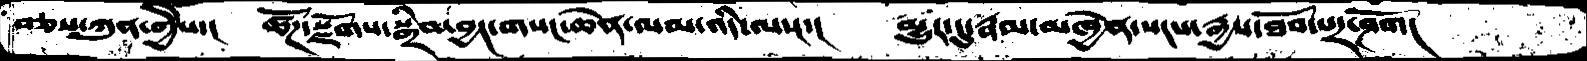བཅས་ཀུན་གྱིས་།  ཚོཌ་སྫོགས་སྒྲིབ་བྱང་གསང་ཆེན་ལམ་འདི་ལ་།་།  མྱུར་དུ་རྣམ་མཁྱེན་སངས་རྒྱས་ཐོབ་པར་ཤོག།
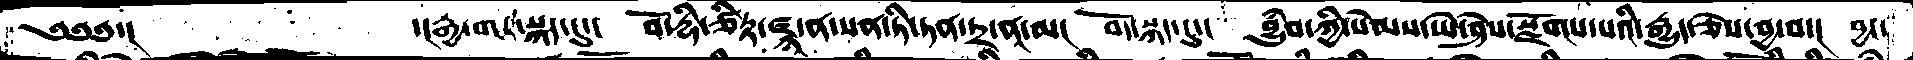༄༅༅་།   ་།རྒྱ་གར་སྐད་དུ་།  བོ་དྷི་ཙིཏྟ་ཛྙཱ་ན་སན་ཏི་ཏན་ཏྲ་ནཱ་མ།  བོད་སྐད་དུ་།  བྱུཾབ་ཀྱི་སེམས་ཡེ་ཤེས་སྫོགས་པའི་རྒྱུད་ཅེས་བྱ་བ་།  བྱང་
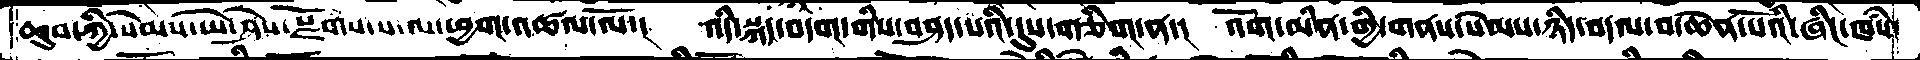ཆུབ་ཀྱི་སེམས་ཡེ་ཤེས་སྫོགས་པ་ལ་ཕྱག་འཚལ་ལོ་།   འདི་སྐད་བདག་གིས་བཤད་པའི་དུས་གཅིག་ན་།   འོག་མིན་གྱི་གནས་སེམས་ཉིད་བདལ་བ་ཆེན་པོའི་ཞིང་ཁཾས་
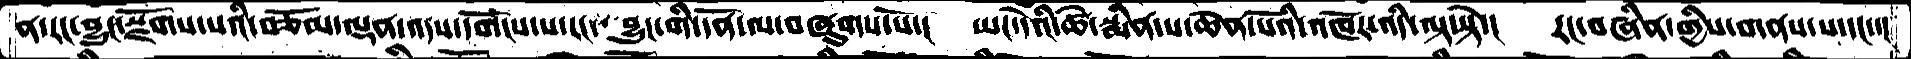ན་རང་བྱུང་སྫོགས་པའི་བཅོམ་ལྡན་འདས་དགོངས་པ་རང་བྱུང་གི་དོན་ལ་བཞུགས་སོ་།   ཡང་དེའི་ཚེ་སྨིན་པ་ཆེན་པོའི་འཁོར་འདི་ལྟ་སྟེ་།  རང་བཞིན་གྱིས་གནས་པ་དང་་།
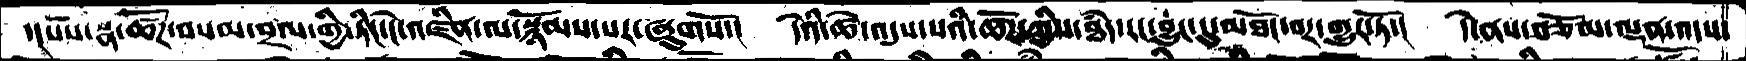་།པོས་སྣ་ཚོཌ་བསམ་བྲལ་གྱི་ཏིང་ངེ་འཛིན་ལ་སྙོམས་པར་ཞུགསོ་།  དེའི་ཚེ་འདུས་པའི་ཚོཌ་ཀྱིས་ཐཾད་རང་བྱུང་དུ་མཐོང་བར་གྱུར་ཏོ་།  དེ་ནས་བཅོམ་ལྡན་འདས་
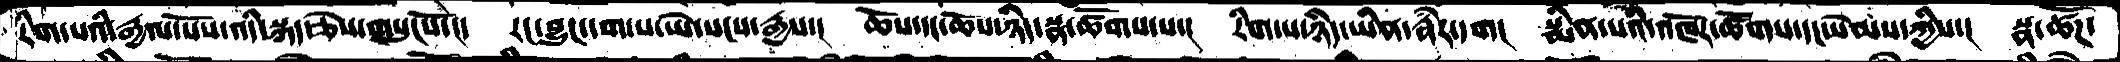རིག་པའི་རྒྱལ་པོས་འདི་སྐད་ཅེས་གསུངསོ།  རང་བྱུང་དག་པ་ཡེ་སངས་རྒྱས་།  ཆོས་དང་ཆོས་ཉིད་སྣ་ཚོགས་པ་།  རིག་པ་ཉིད་ཡིན་རྣཾར་དག།  སྨིན་པའི་འཁོར་ཚོགས་དང་སེམས་ཀྱིས་།  སྣ་ཚོཌ་
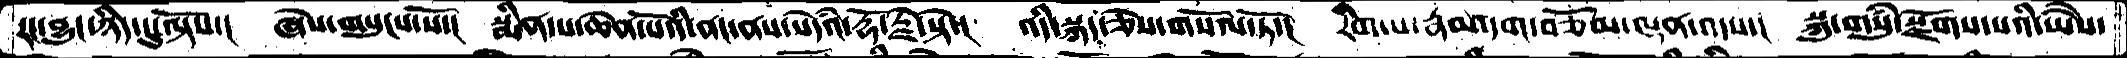རང་བྱུང་ཉིད་དུ་ལྟོས་།  ཞེས་གསུངས་སོ་།  སྨིན་པ་ཆེན་པོའི་ནང་ནས་སེདའཾ་རྡོ་རྗེ་སྟེ་།   འདི་སྐད་ཅེས་གསོལ་ཏོ་།  རིག་པ་རྣམ་དག་བཅོམ་ལྡན་འདས་།  སྐུ་གསུཾ་སྫོགས་པའི་ཡཻས་
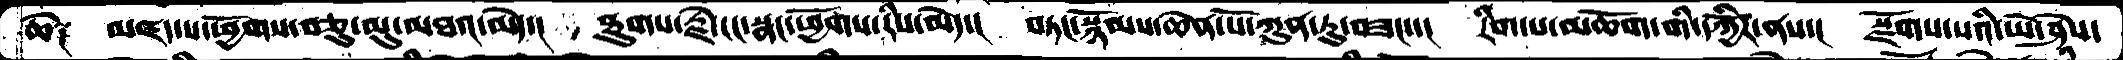ཆེ༑    མཛད་པ་ཕྱོགས་བཅུ་མུ་མཐའ་མེད་།  ཐུགས་རྗེ་ངང་སྣང་ཕྱོགས་རིས་མེད་།  བཏང་སྙོམས་ཆེན་པོ་ཀུན་ཏུ་བཟང་།  རིག་པ་མཆོག་གི་དཀྱིརོ་ནས་།  སྫོགས་པའི་ཡེ་ཤེས་
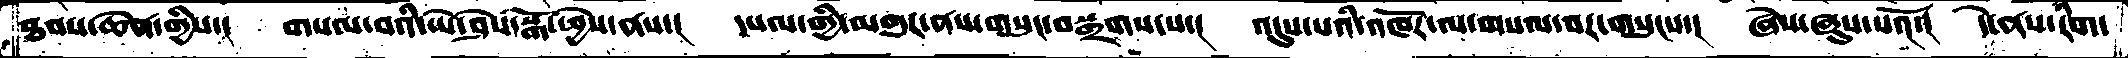ཐབས་ཆེན་གྱིས་།  གསལ་བའི་ཡེ་ཤེས་སྒོ་ཕྱེས་ནས་།  དཔལ་གྱི་མགུར་ནས་གསུང་བསྒྲགས་པ་།  འདུས་པའི་འཁོར་ལ་གསལ་བར་གསུངས་།   ཞེས་ཞུས་པའོ་།  དེ་ནས་རིག་
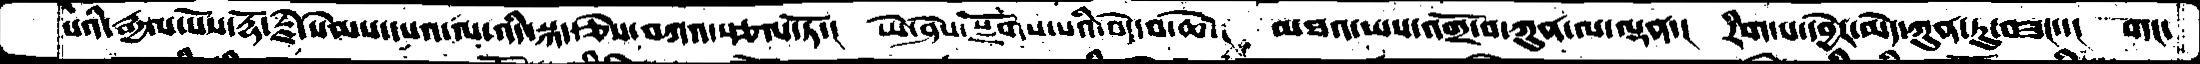པའི་རྒྱལ་པོས་རྡོ་རྗེ་སེམས་དཔའ་ལ་འདི་སྐད་ཅེས་བཀའ་སྩལ་ཏོ་།  ཡེ་ཤེས་སྫོགས་པའི་བདེ་བ་ཆེ་།  མཐའ་ཡས་འགྲོ་བ་ཀུན་ལ་ལྡན་།  རིག་པ་དབྱེར་མེད་ཀུན་ཏུ་བཟང་།  གང་
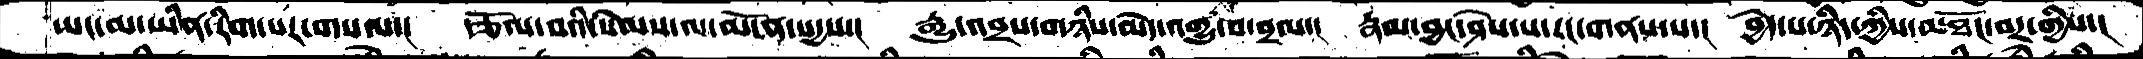ཡང་མ་ཡིན་རིག་པར་གསལ་།  རྩོལ་བའི་སེམས་ལ་མངོན་སདྱས་།  རྒྱུ་འབྲས་གཉིས་མེད་འགྱུ་བ་བྲལ་།  རྣམ་བྱང་ཤེས་པ་རང་གནས་པ་།  བྱེད་པ་ཉིད་ཀྱིས་མཐོང་བར་གྱིས་།
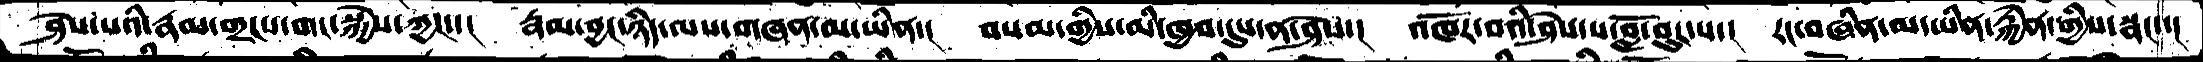ཤེས་པའི་རྣམ་གྲངས་གང་སྐྱེས་ཀྱང་།  རྣམ་བྱང་ཉིད་ལས་གཞན་མ་ཡིན་།  བསམ་གྱིས་མི་ཁྱབ་དུས་ན་ཤེས་།  འཁོར་བའི་ཤེས་པ་བློ་བུར་པ་།  རང་གཞན་མ་ཡིན་རྐྱེན་གྱིས་སྣང་་།
